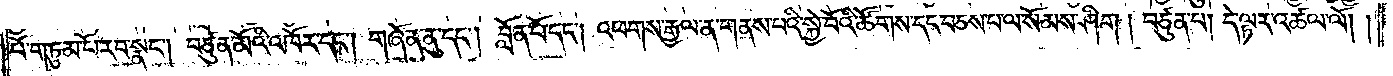པོ་གཏུམ་པོ་རབ་སྣང༌། བཙུན་མོའི་འཁོར་དང༌། གཞོན་ནུ་དང༌། བློན་པོ་དང༌། འཕགས་རྒྱལ་ན་གནས་པའི་སྐྱེ་བོའི་ཚོགས་དང་བཅས་པ་ལ་སོམས་ཤིག །བཙུན་པ། དེ་ལྟར་འཚལ་ལོ། །
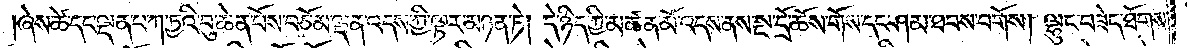ཞེས་ཚེ་དང་ལྡན་པ་ཀ་ཏྱའི་བུ་ཆེན་པོས་བཅོམ་ལྡན་འདས་ཀྱི་ལྟར་མཉན་ཏེ། དེ་ཉིད་ཀྱི་མཚན་མོ་འདས་ནས་སྔ་དྲོ་ཆོས་གོས་དང་ཤམ་ཐབས་བགོས། ལྷུང་བཟེད་ཐོགས་
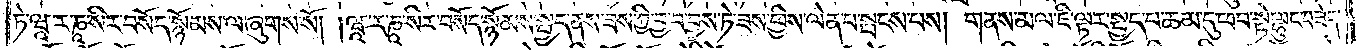ཏེ་ཝཱ་ར་ཎཱ་སིར་བསོད་སྙོམས་ལ་ཞུགས་སོ། །ཝཱ་ར་ཎཱ་སིར་བསོད་སྙོམས་སྤྱད་ནས་ཟས་ཀྱི་བྱ་བ་བྱས་ཏེ་ཟས་ཕྱིས་ལེན་པ་སྤངས་པས། གནས་མལ་ཇི་ལྟར་སྤྱད་པ་ཆམ་དུ་ཕབ་སྟེ་ལྷུང་བཟེད་
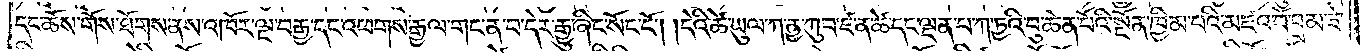དང་ཆོས་གོས་ཐོགས་ནས་འཁོར་ལྔ་བརྒྱ་དང་འཕགས་རྒྱལ་གང་ན་བ་དེར་རྒྱུ་ཞིང་སོང་ངོ༌། །དེའི་ཚེ་ཡུལ་ཀ་ནྱ་ཀུབ་ཛ་ན་ཚེ་དང་ལྡན་པ་ཀ་ཏྱའི་བུ་ཆེན་པོའི་སྔོན་ཁྱིམ་པའི་མཛའ་བོ་བྲམ་ཟེ་
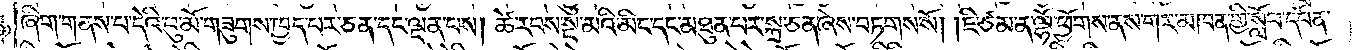ཞིག་གནས་པ་དེའི་བུ་མོ་གཟུགས་ཁྱད་པར་ཅན་དང་ལྡན་པས། ཚེ་རབས་སྔ་མའི་མིང་དང་མཐུན་པར་སྐྲ་ཅན་ཞེས་བཏགས་སོ། །ཇི་ཙམ་ན་ལྷོ་ཕྱོགས་ནས་གར་མཁན་གྱི་སློབ་དཔོན་
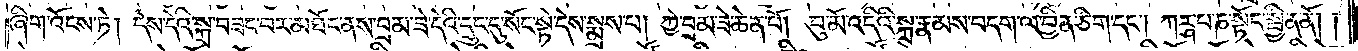ཞིག་འོངས་ཏེ། དེས་དེའི་སྐྲ་བཟང་བར་མཐོང་ནས་བྲམ་ཟེ་དེའི་དྲུང་དུ་སོང་སྟེ་དེས་སྨྲས་པ། ཀྱེ་བྲམ་ཟེ་ཆེན་པོ། བུ་མོ་འདིའི་སྐྲ་རྣམས་བདག་ལ་བྱིན་ཅིག་དང༌། ཀཪྴ་པ་ཎ་སྟོང་སྦྱིན་ནོ། །
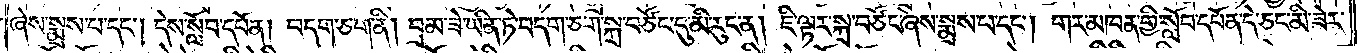ཞེས་སྨྲས་པ་དང༌། དེས་སློབ་དཔོན། བདག་ཅག་ནི། བྲམ་ཟེ་ཡིན་ཏེ་བདག་ཅག་སྐྲ་བཙོང་དུ་མི་རུང་ན། ཇི་ལྟར་སྐྲ་བཙོང་ཞེས་སྨྲས་པ་དང༌། གར་མཁན་གྱི་སློབ་དཔོན་དེ་ཅང་མི་ཟེར་
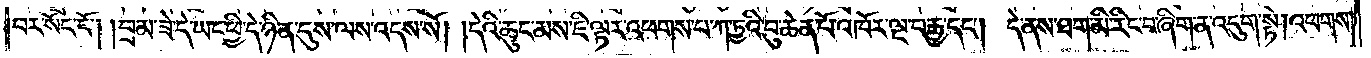བར་སོང་ངོ༌། །བྲམ་ཟེ་དེ་ཡང་ཕྱི་དེ་ཉིན་དུས་ལས་འདས་སོ། །དེའི་ཆུང་མས་ཇི་ལྟར་འཕགས་པ་ཀ་ཏྱའི་བུ་ཆེན་པོ་འཁོར་ལྔ་བརྒྱ་དང༌། དེ་ནས་ཐག་མི་རིང་བ་ཞིག་ན་འདུག་སྟེ། འཕགས་
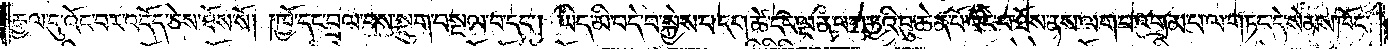རྒྱལ་དུ་འོང་བར་འདོད་ཅེས་ཐོས་སོ། །ཁྱོ་དང་བྲལ་བས་སྡུག་བསྔལ་བ་དང༌། ཡིད་མི་བདེ་བ་སྐྱེས་པ་དང༌། ཚེ་དང་ལྡན་པ་ཀ་ཏྱའི་བུ་ཆེན་པོ་འོང་བ་ཐོས་ནས་ལག་པ་འགྲམ་པ་ལ་གཏད་དེ་སེམས་ཁོང་
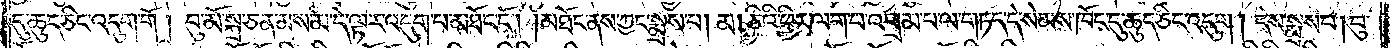དུ་ཆུད་ཅིང་འདུག་གོ །བུ་མོ་སྐྲ་ཅན་མས་མ་དེ་ལྟར་འདུག་པ་མཐོང་ངོ༌། །མཐོང་ནས་ཀྱང་སྨྲས་པ། མ། ཅིའི་ཕྱིར་ལག་པ་འགྲམ་པ་ལ་གཏད་དེ་སེམས་ཁོང་དུ་ཆུད་ཅིང་འདུག །དེས་སྨྲས་པ། བུ་
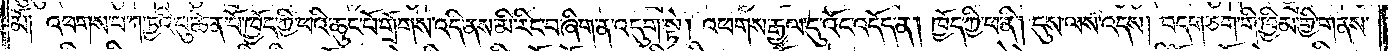མོ། འཕགས་པ་ཀ་ཏྱའི་བུ་ཆེན་པོ་ཁྱོད་ཀྱི་ཕའི་ཆུང་པོ་གྲོགས་འདི་ནས་མི་རིང་བ་ཞིག་ན་འདུག་སྟེ། འཕགས་རྒྱལ་དུ་འོང་འདོད་ན། ཁྱོད་ཀྱི་ཕ་ནི། དུས་ལས་འདས། བདག་ཅག་གི་ཁྱིམ་གྱི་གནས་
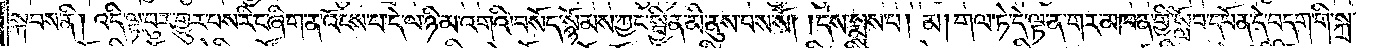སྐབས་ནི། འདི་ལྟ་བུར་གྱུར་པས་རིང་ཞིག་ན་འོངས་པ་དེ་ལ་ཉི་མ་འགའི་བསོད་སྙོམས་ཀྱང་སྦྱིན་མི་ནུས་པས་སོ། །དེས་སྨྲས་པ། མ། གལ་ཏེ་དེ་ལྟ་ན་གར་མཁན་གྱི་སློབ་དཔོན་དེ་བདག་གི་སྐྲ་
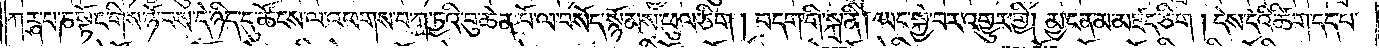ཀཪྴ་པ་ཎ་སྟོང་གིས་ཉོ་བས་དེ་ཉིད་དུ་ཚོངས་ལ་འཕགས་པ་ཀ་ཏྱའི་བུ་ཆེན་པོ་ལ་བསོད་སྙོམས་ཕུལ་ཅིག །བདག་གི་སྐྲ་ནི། ཡང་སྐྱེ་བར་འགྱུར་གྱི། མྱ་ངན་མ་མཛད་ཅིག །དེས་དེའི་ཚིག་དད་པ་
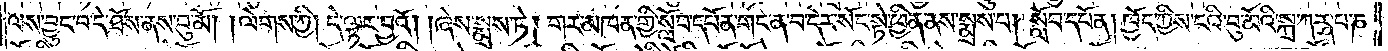ལས་བྱུང་བ་དེ་ཐོས་ནས་བུ་མོ། །ལེགས་ཀྱི། དེ་ལྟར་བྱའོ། །ཞེས་སྨྲས་ཏེ། གར་མཁན་གྱི་སློབ་དཔོན་གང་ན་བ་དེར་སོང་སྟེ་ཕྱིན་ནས་སྨྲས་པ། སློབ་དཔོན། ཁྱོད་ཀྱིས་ངའི་བུ་མོའི་སྐྲ་ཀཪྴ་པ་ཎ་
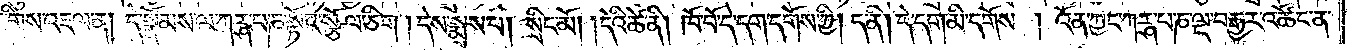སྟོང་གིས་འཇལ་ན། དེ་སྣོམས་ལ་ཀཪྴ་པ་ཎ་སྟོང་སྩོལ་ཅིག །དེས་སྨྲས་པ། སྲིང་མོ། །དེའི་ཚེ་ནི། ཁོ་བོ་དེ་དག་དགོས་ཀྱི། ད་ནི། དེ་དག་མི་དགོས། འོན་ཀྱང་ཀཪྴ་པ་ཎ་ལྔ་བརྒྱར་འཚོང་ན་
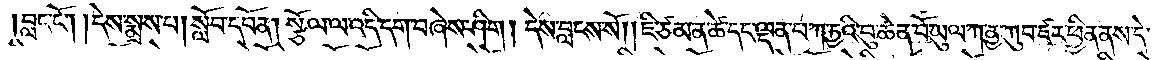བླང་ངོ༌། །དེས་སྨྲས་པ། སློབ་དཔོན། སྩོལ་ལ་འདི་དག་བཞེས་ཤིག །དེས་བླངས་སོ། །ཇི་ཙམ་ན་ཚེ་དང་ལྡན་པ་ཀ་ཏྱའི་བུ་ཆེན་པོ་ཡུལ་ཀ་ནྱ་ཀུབ་ཛར་ཕྱིན་ནས་དེ་
